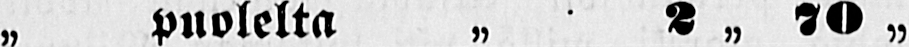„ puolelta „ 2 „ 70 „
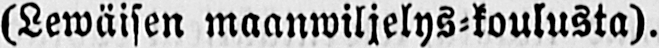(Lewäisen maanwiljelys-koulusta).
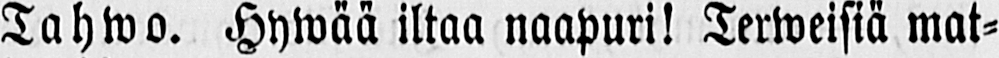Tahwo. Hywää iltaa naapuri! Terweisiä mat-
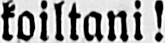koiltani!
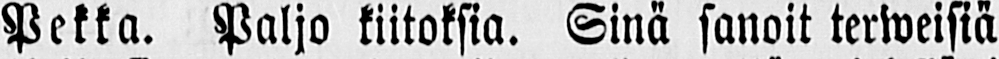Pekka. Paljo kiitoksia. Sinä sanoit terweisiä
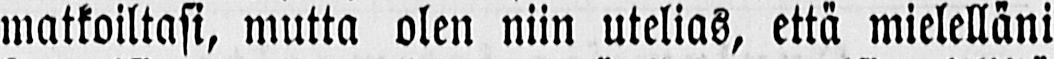matkoiltasi, mutta olen niin utelias, että mielelläni
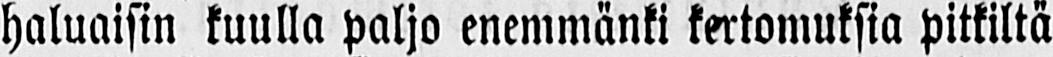haluaisin kuulla paljo enemmänki kertomuksia pitkiltä
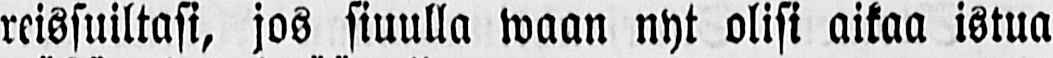reissuiltasi, jos siuulla waan nyt olisi aikaa istua
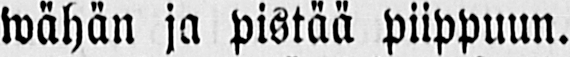wähän ja pistää piippuun.
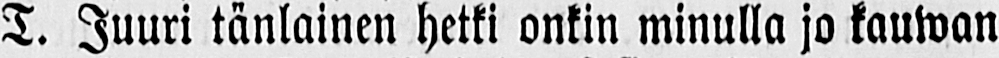T. Juuri tänlainen hetki onkin minulla jo kauwan
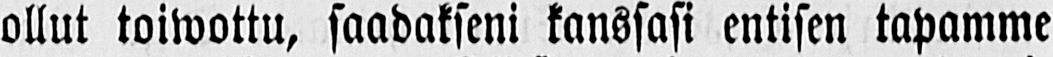ollut toiwottu, saadakseni kanssasi entisen tapamme
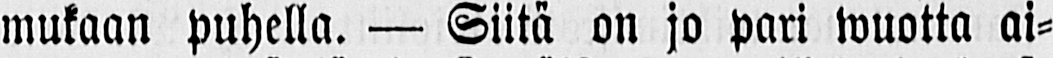mukaan puhella. — Siitä on jo pari wuotta ai-
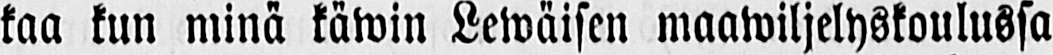kaa kun minä käwin Lewäisen maawiljelyskoulussa
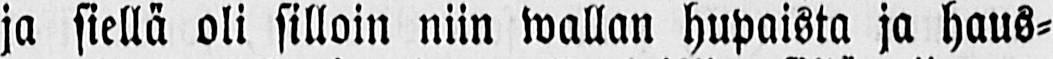ja siellä oli silloin niin wallan hupaista ja haus-
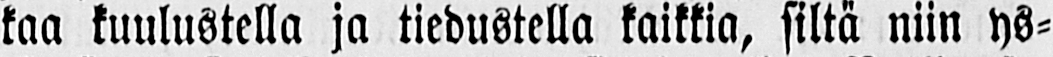kaa kuulustella ja tiedustella kaikkia, siltä niin ys-
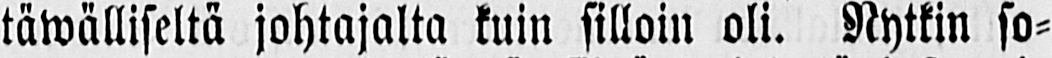täwälliseltä johtajalta kuin silloin oli. Nytkin so-
